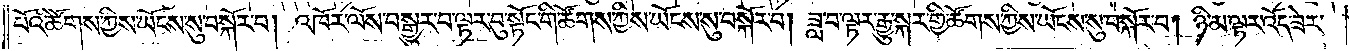པོའི་ཚོགས་ཀྱིས་ཡོངས་སུ་བསྐོར་བ། འཁོར་ལོས་བསྒྱུར་བ་ལྟར་བུ་སྟོང་གི་ཚོགས་ཀྱིས་ཡོངས་སུ་བསྐོར་བ། ཟླ་བ་ལྟར་རྒྱུ་སྐར་གྱི་ཚོགས་ཀྱིས་ཡོངས་སུ་བསྐོར་བ། ཉི་མ་ལྟར་འོད་ཟེར་
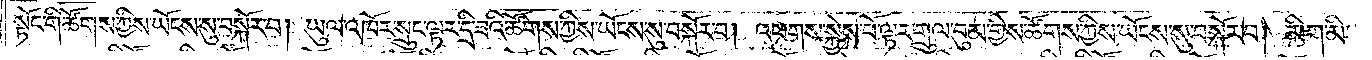སྟོང་གི་ཚོགས་ཀྱིས་ཡོངས་སུ་བསྐོར་བ། ཡུལ་འཁོར་སྲུང་ལྟར་དྲི་ཟའི་ཚོགས་ཀྱིས་ཡོངས་སུ་བསྐོར་བ། འཕགས་སྐྱེས་པོ་ལྟར་གྲུལ་བུམ་གྱིས་ཚོགས་ཀྱིས་ཡོངས་སུ་བསྐོར་བ། མིག་མི་
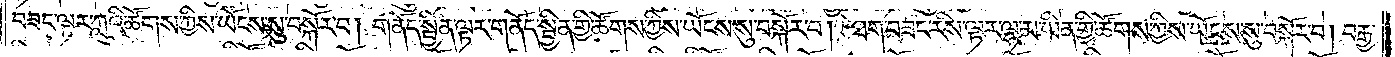བཟང་ལྟར་ཀླུའི་ཚོགས་ཀྱིས་ཡོངས་སུ་བསྐོར་བ། གནོད་སྦྱིན་ལྟར་གནོད་སྦྱིན་གྱི་ཚོགས་ཀྱིས་ཡོངས་སུ་བསྐོར་བ། ཐག་བཟང་རིས་ལྟར་ལྷ་མ་ཡིན་གྱི་ཚོགས་ཀྱིས་ཡོངས་སུ་བསྐོར་བ། བརྒྱ་
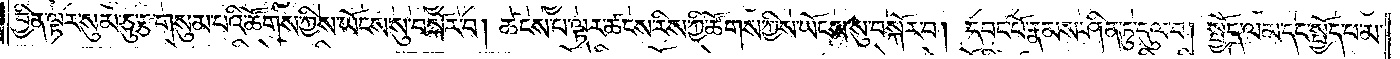བྱིན་ལྟར་སུམ་ཅུ་རྩ་གསུམ་པའི་ཚོགས་ཀྱིས་ཡོངས་སུ་བསྐོར་བ། ཚངས་པ་ལྟར་ཚངས་རིས་ཀྱི་ཚོགས་ཀྱིས་ཡོངས་སུ་བསྐོར་བ། དབང་པོ་རྣམས་ཤིན་ཏུ་དུལ་བ། སྤྱོད་ལམ་དང་སྤྱོད་པ་མ་
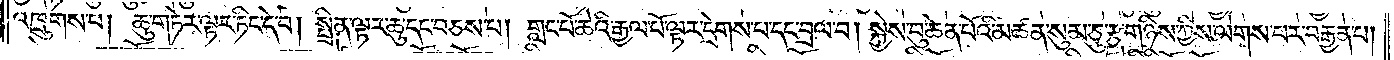འཁྲུགས་པ། ཆུ་གཏེར་ལྟར་ཏིང་དེ་བ། སྤྲིན་ལྟར་ཆུ་དང་བཅས་པ། གླང་པོ་ཆེའི་རྒྱལ་པོ་ལྟར་དྲེགས་པ་དང་བྲལ་བ། སྐྱེས་བུ་ཆེན་པོའི་མཚན་སུམ་ཅུ་རྩ་གཉིས་ཀྱིས་ལེགས་པར་བརྒྱན་པ།
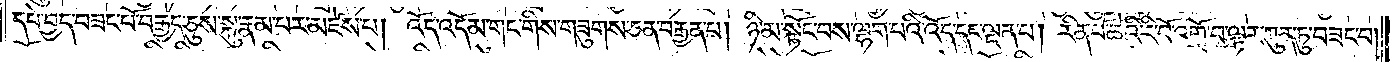དཔེ་བྱད་བཟང་པོ་བརྒྱད་ཅུས་སྐུ་རྣམ་པར་མཛེས་པ། འོད་འདོམ་གང་གིས་གཟུགས་ཅན་བརྒྱན་པ། ཉི་མ་སྟོང་བས་ལྷག་པའི་འོད་དང་ལྡན་པ། རིན་པོ་ཆེའི་རི་བོ་འགྲོ་བ་ལྟར་ཀུན་ཏུ་བཟང་བ།
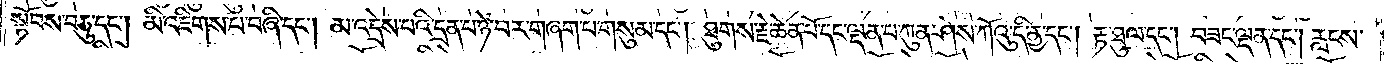སྟོབས་བཅུ་དང༌། མི་འཇིགས་པ་བཞི་དང༌། མ་འདྲེས་པའི་དྲན་པ་ཉེ་བར་གཞག་པ་གསུམ་དང༌། ཐུགས་རྗེ་ཆེན་པོ་དང་ལྡན་པ་ཀུན་ཤེས་ཀོའུ་དི་ནྱ་དང༌། རྟ་ཐུལ་དང༌། བཟང་ལྡན་དང༌། རླངས་
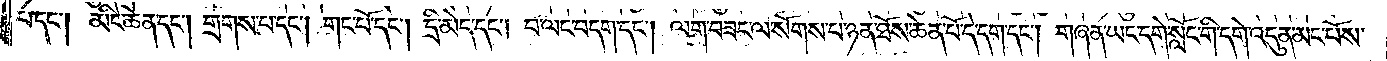པ་དང༌། མིང་ཆེན་དང༌། གྲགས་པ་དང༌། གང་པོ་དང༌། དྲི་མེད་དང༌། བ་ལང་བདག་དང༌། ལག་བཟང་ལ་སོགས་པ་ཉན་ཐོས་ཆེན་པོ་དེ་དག་དང༌། གཞན་ཡང་དགེ་སློང་གི་དགེ་འདུན་མང་པོས་
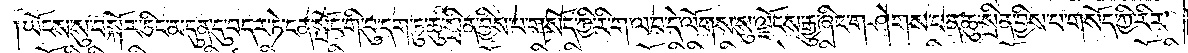ཡོངས་སུ་བསྐོར་ཅིང་མདུན་དུ་བདར་ཏེ་ངན་སྤོང་གི་བུ་དག་ཏུ་ཆུ་སྲིན་བྱིས་པ་གསོད་ཀྱི་རི་ག་ལ་བ་དེ་ལོགས་སུ་ལྗོངས་རྒྱུ་ཞིང་གཤེགས་པ་ན་ཆུ་སྲིན་བྱིས་པ་གསོད་ཀྱི་རིར་
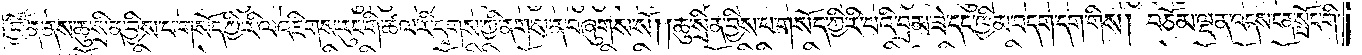བྱོན་ནས་ཆུ་སྲིན་བྱིས་པ་གསོད་ཀྱི་རི་ལ་འཇིགས་རུང་གི་ཆ་ལ་རི་དྭགས་ཀྱི་ནགས་ན་བཞུགས་སོ། །ཆུ་སྲིན་བྱིས་པ་གསོད་ཀྱི་རི་པའི་བྲམ་ཟེ་དང་ཁྱིམ་བདག་དག་གིས། བཅོམ་ལྡན་འདས་ངན་སྤོང་གི་
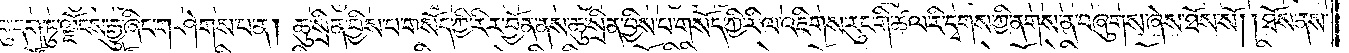བུ་དག་ཏུ་ལྗོངས་རྒྱུ་ཞིང་གཤེགས་པ་ན། ཆུ་སྲིན་བྱིས་པ་གསོད་ཀྱི་རིར་བྱོན་ནས་ཆུ་སྲིན་བྱིས་པ་གསོད་ཀྱི་རི་ལ་འཇིགས་རུང་གི་ཚལ་རི་དྭགས་ཀྱི་ནགས་ན་བཞུགས་ཞེས་ཐོས་སོ། ཐོས་ནས་
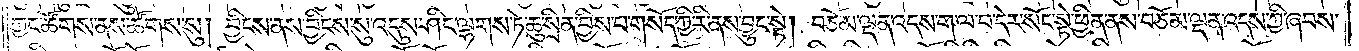ཀྱང་ཚོགས་ནས་ཚོགས་སུ། བྱིངས་ནས་བྱིངས་སུ་འདུས་ཤིང་ལྷགས་ཏེ་ཆུ་སྲིན་བྱིས་པ་གསོད་ཀྱི་རི་ནས་བྱུང་སྟེ། བཅོམ་ལྡན་འདས་ག་ལ་བ་དེར་སོང་སྟེ་ཕྱིན་ནས་བཅོམ་ལྡན་འདས་ཀྱི་ཞབས་
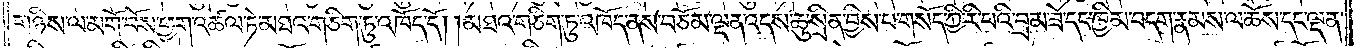གཉིས་ལ་མགོ་བོས་ཕྱག་འཚལ་ཏེ་མཐའ་གཅིག་ཏུ་འཁོད་དོ། །མཐའ་གཅིག་ཏུ་འཁོད་ནས་བཅོམ་ལྡན་འདས་ཆུ་སྲིན་བྱིས་པ་གསོད་ཀྱི་རི་པའི་བྲམ་ཟེ་དང་ཁྱིམ་བདག་རྣམས་ལ་ཆོས་དང་ལྡན་
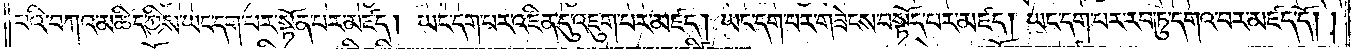པའི་བཀའ་མཆིད་ཀྱིས་ཡང་དག་པར་སྟོན་པར་མཛད། ཡང་དག་པར་འཛིན་དུ་འཇུག་པར་མཛད། ཡང་དག་པར་གཟེངས་བསྟོད་པར་མཛད། ཡང་དག་པར་རབ་ཏུ་དགའ་བར་མཛད་དོ། །
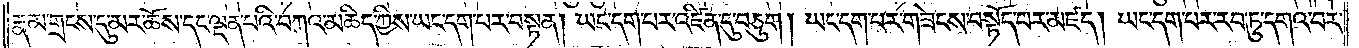རྣམ་གྲངས་དུ་མར་ཆོས་དང་ལྡན་པའི་བཀའ་མཆིད་ཀྱིས་ཡང་དག་པར་བསྟན། ཡང་དག་པར་འཛིན་དུ་བཅུག །ཡང་དག་པར་གཟེངས་བསྟོད་པར་མཛད། ཡང་དག་པར་རབ་ཏུ་དགའ་བར་
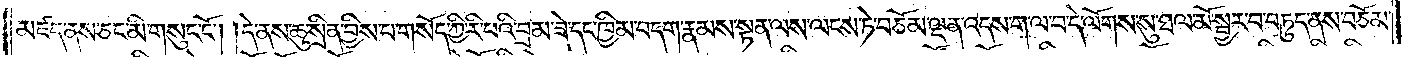མཛད་ནས་ཅང་མི་གསུང་ངོ༌། །དེ་ནས་ཆུ་སྲིན་བྱིས་པ་གསོད་ཀྱི་རི་པའི་བྲམ་ཟེ་དང་ཁྱིམ་བདག་རྣམས་སྟན་ལས་ལངས་ཏེ་བཅོམ་ལྡན་འདས་ག་ལ་བ་དེ་ལོགས་སུ་ཐལ་མོ་སྦྱར་བ་བཏུད་ནས་བཅོམ་
